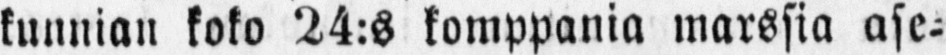kunnian koko 24:s komppania marssia ase-
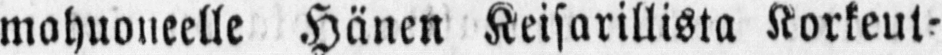mahuoneelle Hänen Keisarillista Korkeut-
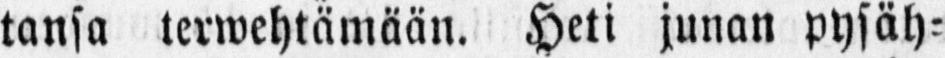tansa terwehtämään. Heti junan pysäh-
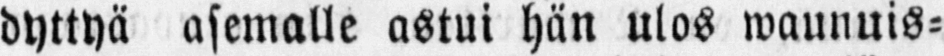dyttyä asemalle astui hän ulos waunuis-
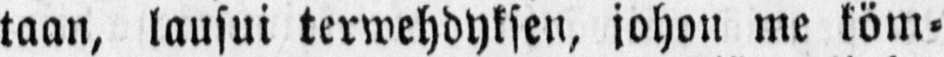taan, lausui terwehdyksen, johon me köm-
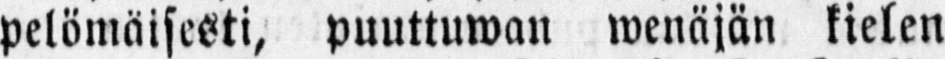pelömäisesti, puuttuwan wenäjän kielen
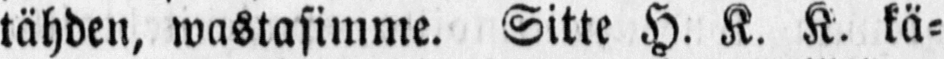tähden, wastasimme. Sitte H. K. K. kä-
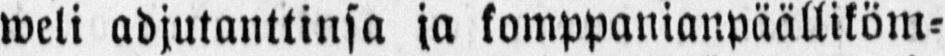weli adjutanttinsa ja komppanianpäälliköm-
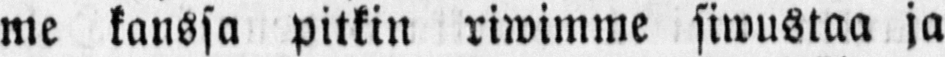me kanssa pitkin riwimme siwustaa ja
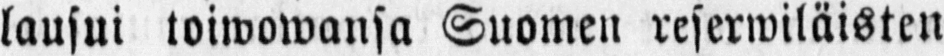lausui toiwowansa Suomen reserwiläisten
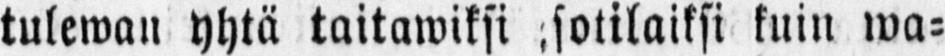tulewan yhtä taitawiksi sotilaiksi kuin wa-
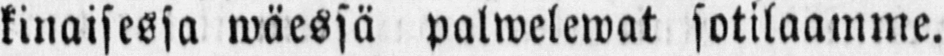kinaisessa wäessä palwelewat sotilaamme.
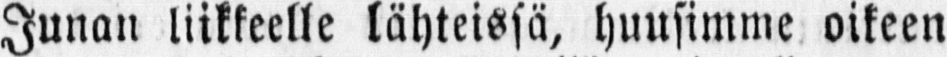Junan liikkeelle lähteissä, huusimme oikeen
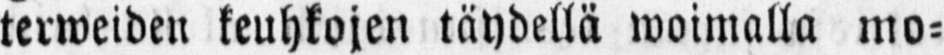terweiden keuhkojen täydellä woimalla mo-
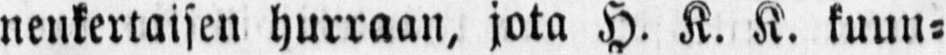nenkertaisen hurraan, jota H. K. K. kunn-
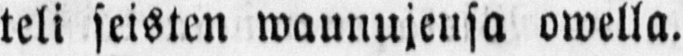teli seisten waunujensa owella.
